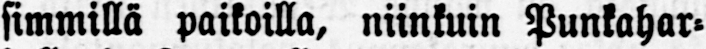simmillä paikoilla, niinkuin Punkahar-
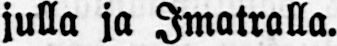julla ja Imatralla.
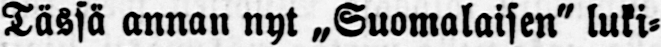Tässä annan nyt ˶Suomalaisen" luki-
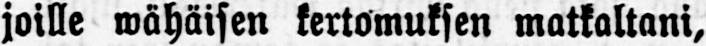joille wähäisen kertomuksen matkaltani,
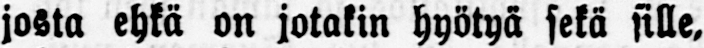josta ehkä on jotakin hyötyä sekä sille,
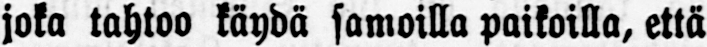joka tahtoo käydä samoilla paikoilla, että
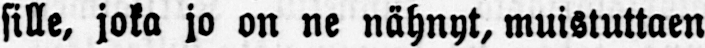sille, joka jo on ne nähnyt, muistuttaen
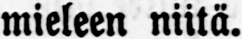mieleen niitä.
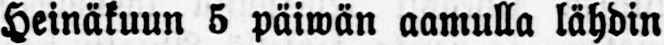Heinäkuun 5 päiwän aamulla lähdin
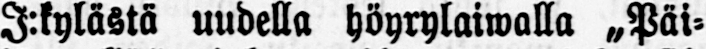J:kylästä uudella höyrylaiwalla „Päi-
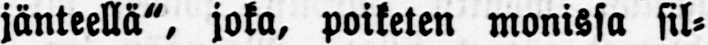jänteellä", joka, poiketen monissa sil-
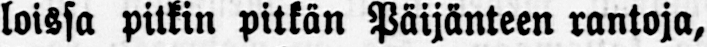loissa pitkin pitkän Päijänteen rantoja,
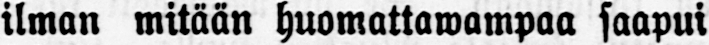ilman mitään huomattawampaa saapui
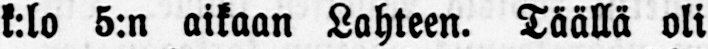k:lo 5:n aikaan Lahteen. Täällä oli
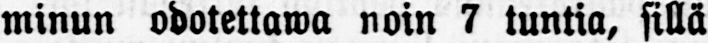minun odotettawa noin 7 tuntia, sillä
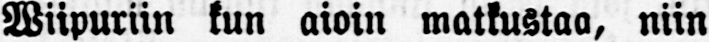Wiipuriin kun aioin matkustaa, niin
